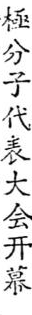極分子代表大会开幕
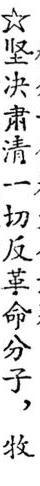☆坚决肃清一切反革命分子，牧
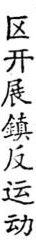区开展鎮反运动
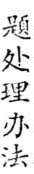題处理办法
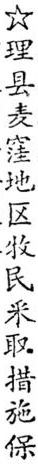☆理县麦窪地区牧民采取措施保
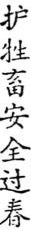护牲畜安全过春
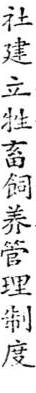社建立牲畜飼养管理制度
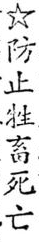☆防止牲畜死亡
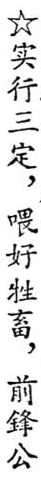☆实行三定，喂好牲畜，前鋒公
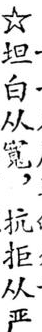☆坦白从寬，抗拒从严
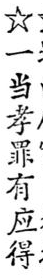☆一当孝罪有应得
